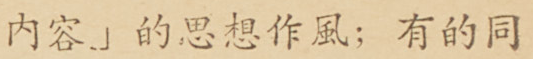內容」的思想作風；有的同
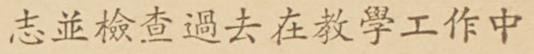志並檢查過去在教學工作中
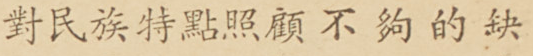對民族特點照顧不夠的缺
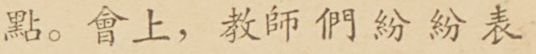點。會上，教師們紛紛表
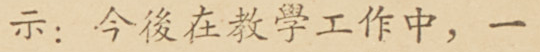示：今後在教學工作中，一
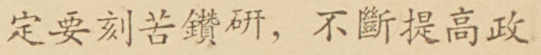定要刻苦鑽研，不斷提高政
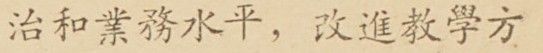治和業務水平，改進教學方
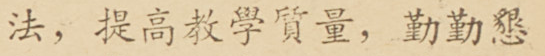法，提高教學質量，勤勤懇
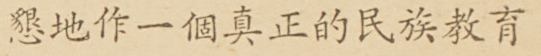懇地作一個真正的民族教育
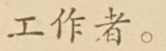工作者。
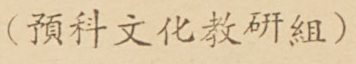（預科文化教研組）
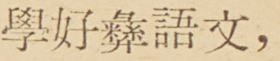學好彝語文，
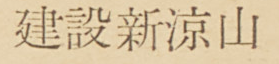建設新涼山
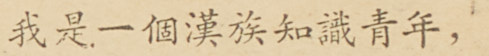我是一個漢族知識青年，
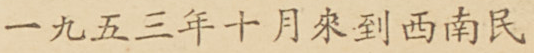一九五三年十月來到西南民
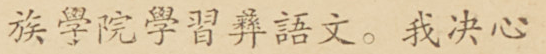族學院學習彝語文。我決心
